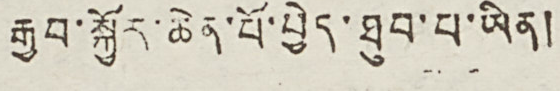རྒྱབ་སྐྱོར་ཆེན་པོ་བྱེད་ཐུབ་པ་ཡིན།
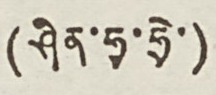(ཤིན་ཧྭ་ཧྲེ་)
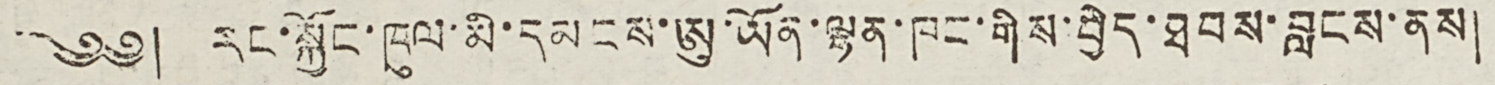༄༅། རང་སྐྱོང་ཁུལ་མི་དམངས་ཨུ་ཡོན་ལྷན་ཁང་གིས་བྱེད་ཐབས་བླངས་ནས།
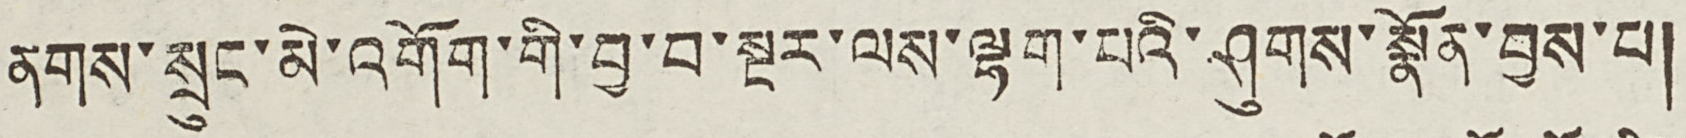ནགས་སྲུང་མེ་འགོག་གི་བྱ་བ་སྔར་ལས་ལྷག་པའི་ཤུགས་སྣོན་བྱས་པ།
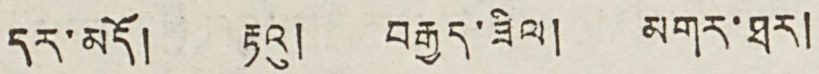དར་མདོ། རྟའུ། བརྒྱད་ཟིལ། མགར་ཐར།
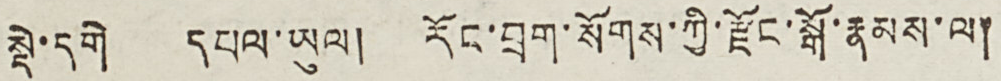སྡེ་དགེ དཔལ་ཡུལ། རོང་བྲག་སོགས་ཀྱི་རྫོང་སྒོ་རྣམས་ལ།
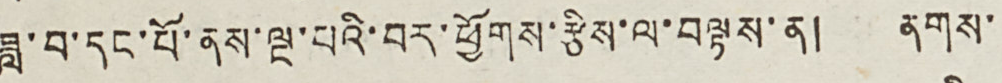ཟླ་བ་དང་པོ་ནས་ལྔ་པའི་བར་ཕྱོགས་རྩིས་ལ་བལྟས་ན། ནགས་
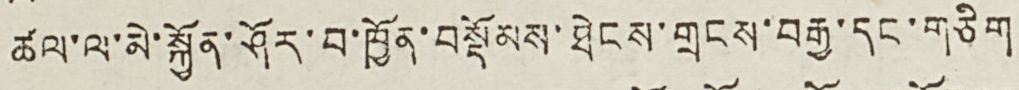ཚལ་ལ་མེ་སྐྱོན་ཤོར་བ་ཁྱོན་བསྡོམས་ཐེངས་གྲངས་བརྒྱ་དང་གཅིག
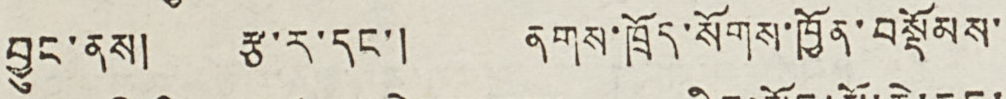བྱུང་ནས། རྩ་ར་དང་། ནགས་ཁྲོད་སོགས་ཁྱོན་བསྡོམས་
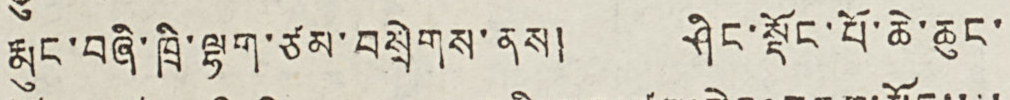རྨུང་བཞི་ཁྲི་ལྷག་ཙམ་བསྲེགས་ནས། ཤིང་སྡོང་པོ་ཆེ་ཆུང་
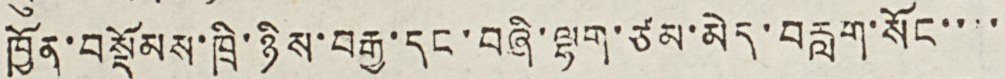ཁྱོན་བསྡོམས་ཁྲི་ཉིས་བརྒྱ་དང་བཞི་ལྷག་ཙམ་མེད་བརླག་སོང་་་་
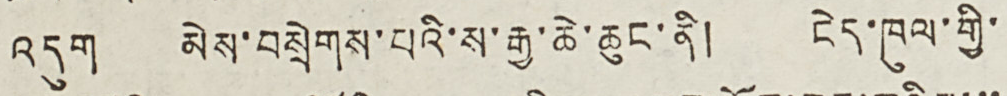འདུག མེས་བསྲེགས་པའི་ས་རྒྱ་ཆེ་ཆུང་ནི། ངེད་ཁུལ་གྱི་
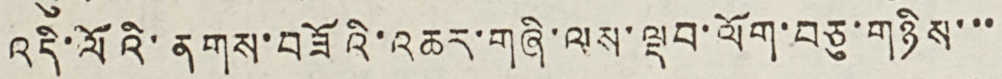འདི་ལོའི་ནགས་བཟོའི་འཆར་གཞི་ལས་ལྡབ་ལོག་བཅུ་གཉིས་་་
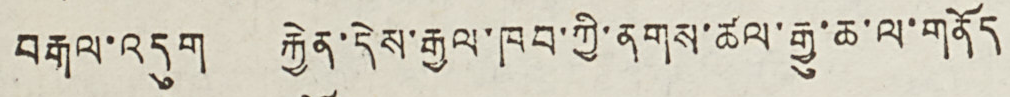བརྒལ་འདུག རྐྱེན་དེས་རྒྱལ་ཁབ་ཀྱི་ནགས་ཚལ་རྒྱུ་ཆ་ལ་གནོད
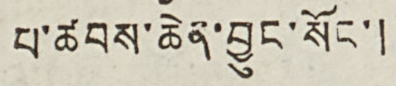པ་ཚབས་ཆེན་བྱུང་སོང་།
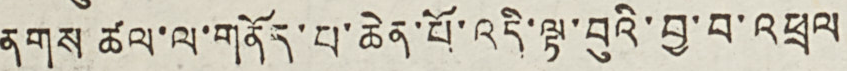ནགས ཚལ་ལ་གནོད་པ་ཆེན་པོ་འདི་ལྟ་བུའི་བྱ་བ་འཕྲལ
